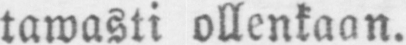tawasti ollenkaan.
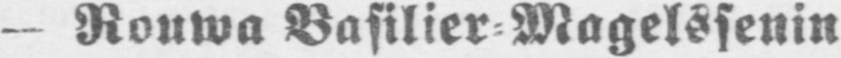— Rouwa Basilier-Magelssenin
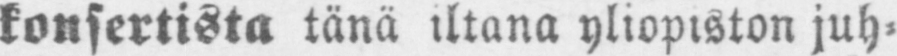konsertista tänä iltana yliopiston juh-
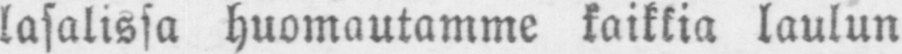lasalissa huomautamme kaikkia laulun
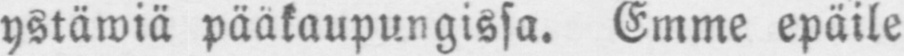ystäwiä pääkaupungissa. Emme epäile
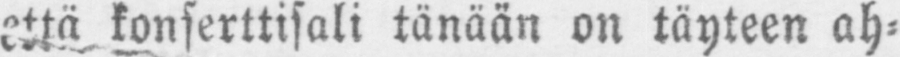että konserttisali tänään on täyteen ah-
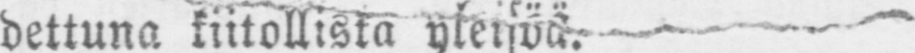dettuna kiitollista yleisöä.
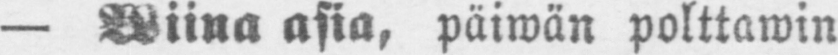— Wiina asia, päiwän polttawin
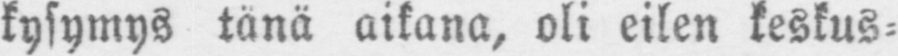kysymys tänä aikana, oli eilen keskus-
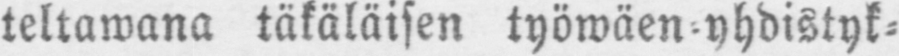teltawana täkäläisen työwäen-yhdistyk-
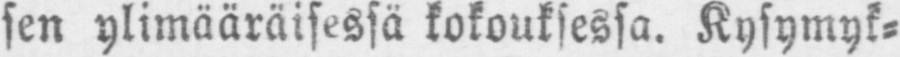sen ylimääräisessä kokouksessa. Kysymyk-
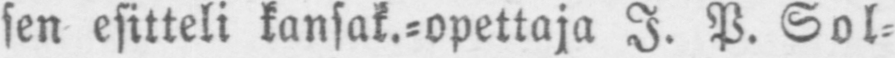sen esitteli kansak.-opettaja I. P. Sol-
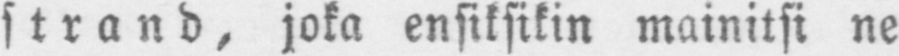strand, joka ensiksikin mainitsi ne
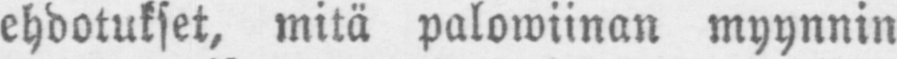ehdotukset, mitä palomiinan myynnin
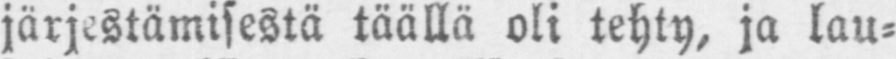järjestämisestä täällä oli tehty, ja lau-
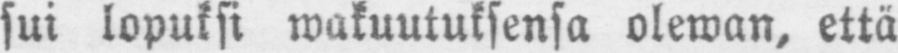sui lopuksi wakuutuksensa olewan, että
